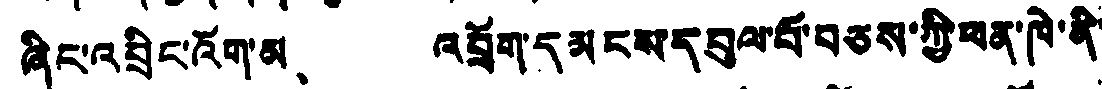ཞིང་འབྲིང་འོག་མ、 འབྲོག་དམངས་དབུལ་བོ་བཅས་ཀྱི་ཕན་ཁེ་ནི་
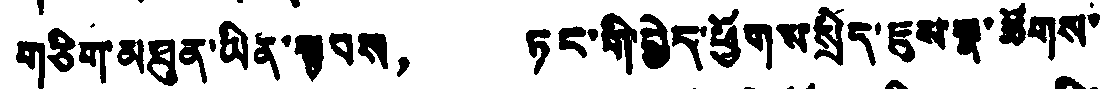གཅིག་མཐུན་ཡིན་སྟབས， ཏང་གི་བྱེད་ཕྱོགས་སྲིད་ཇུས་སྣ་ཚོགས་
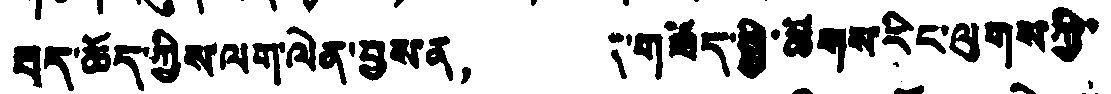བྲད་ཆོད་ཀྱིས་ལག་ལེན་བྱས་ན， ད་གཟོད་སྤྱི་ཚོགས་རིང་ལུགས་ཀྱི་
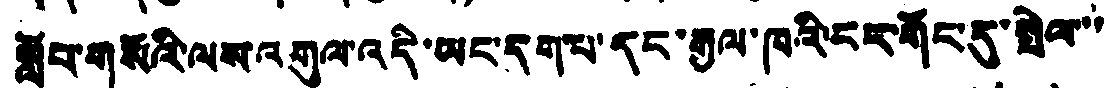སློབ་གསོའི་ལས་འགུལ་འདི་ཡང་དགཔ་དང་རྒྱལ་ཁའི་ངར་གོང་དུ་སྤེལ་་
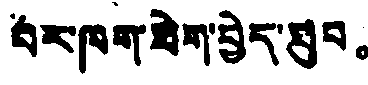པར་ཁག་ཐེག་བྱེད་ཐུབ。
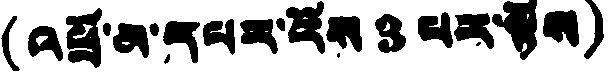(འཕྲོ་མ་དཔར་ངོས 3 པར་སྟོས)
